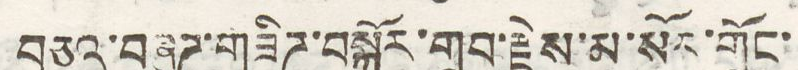བཅའ་བཞུཌ་གཟིཌ་བསྐོར་གྲུབ་རྗེས་མ་སོར་གྲོང་
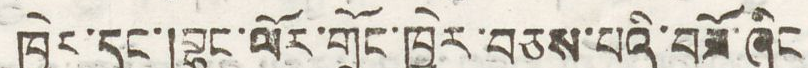ཁྱེར་དང་།བྷང་ལོར་གྲོང་ཁྱེར་བཅས་པའི་བཟོ་ཞིང
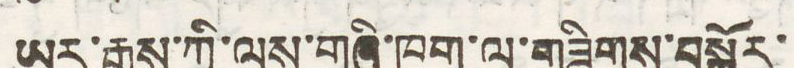ཡར་རྒྱས་ཀྱི་ལས་གཞི་ཁག་ལ་གཟིགས་བསྐོར་
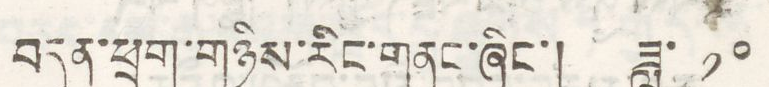བདུན་ཕྲག་གཉིས་རིང་གནང་ཞིང་། ཟླ་ ༡༠
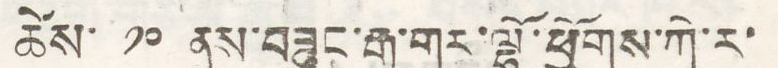ཚེས་ ༡༠ ནས་བཟུང་རྒྱ་གར་ལྷོ་ཕྱོགས་ཀེ་ར་
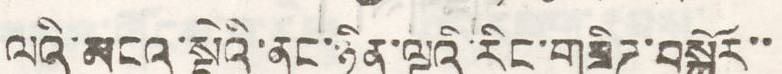ལའི་མངའ་སྡེའི་ནང་ཉིན་ལྔའི རིང་གཟིཌ་བསྐོར་་
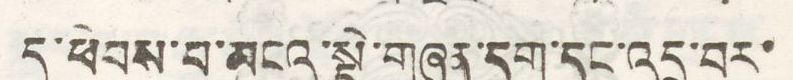དུ་ཕེབས་པ་མངའ་སྡེ་གཞན་དག་དང་འདྲ་བར་
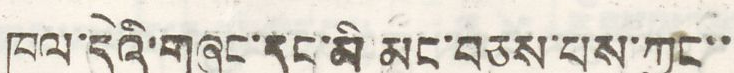ཁུལ་དེའི་གཞུང་དང་མི མང་བཅས་པས་ཀྱང་་
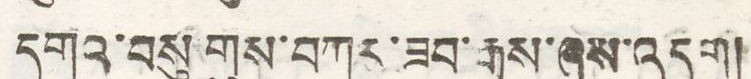དགའ་བསུ གུས་བཀུར་ཟབ་རྒྱས་ཞུས་འདུག།
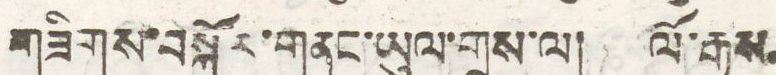གཟིགས་བསྐོར་གནང་ཡུལ་གྲས་ལ། ལོ་རྒྱུས
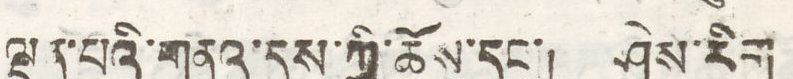ལྡན་པའི་གནས་དུས་ཀྱི་ཆོས་དང་། ཤེས་རིག
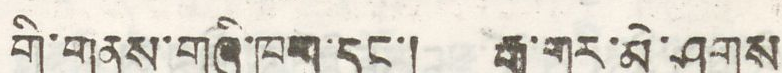གི་གནས་གཞི་ཁག་དང་། རྒྱ་གར་མེ་ཤུགས
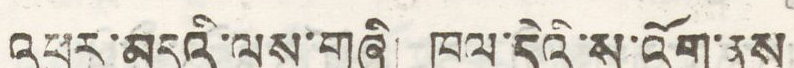འཕུལ་མདའི་ལས་གཞི། ཁུལ་དེའི་ས་འོག་ནས
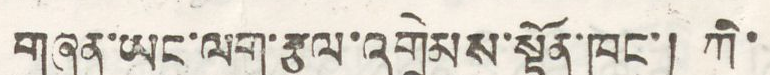གཞན་ཡང་ལག་རྩལ་འགྲེམས་སྟོན་ཁང་། ཀི་
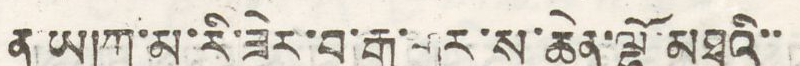ན ཡ།ཀུ་མ་རི་ཟེར་བ་རྒྱ་གར་ས་ཆེན་ལྷོ་མཐའི་་
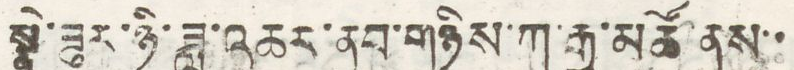སྣེ་ཟུར་ཉི་ཟླ་འཆར་ནུབ་གཉིས་ཀ་རྒྱ་མཚོ་ནས་་
